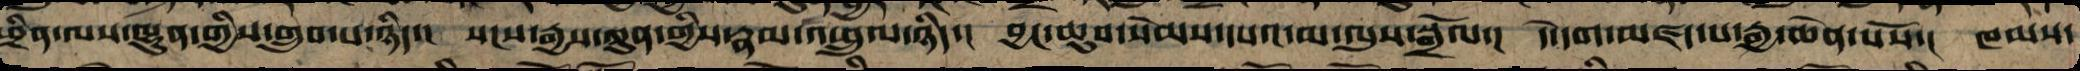ཕྲིན་ལས་ལྷུན་གྱིས་གྲུབ་པ་ཉིད་། སངས་རྒྱས་ཀུན་གྱི་རྣམ་འཕྲུལ་ཉིད་། བྱང་ཆུབ་སེམས་དཔའ་མ་ལུས་སྒྲོལ་། དེ་དག་མཛད་པ་རྒྱ་ཆེན་པོས་། ཁམས་
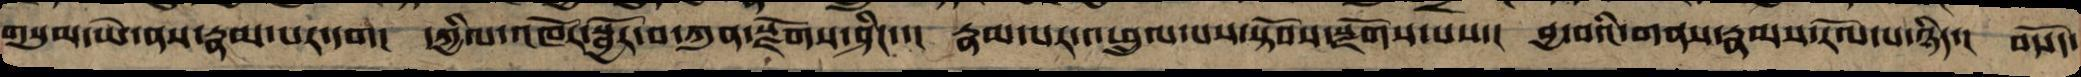གསུམ་ཡེ་ནས་རྣམ་པར་དག། དཀྱིལ་འཁོར་སྦྱོར་བ་ཀུན་སྫོགས་ཤིང་་། རྣམ་པར་འཕྲུལ་པས་སྟོབས་སྫོགས་པས་། བྱ་བའི་གནས་རྣམས་རོལ་པ་ཉིད་། བསོད་
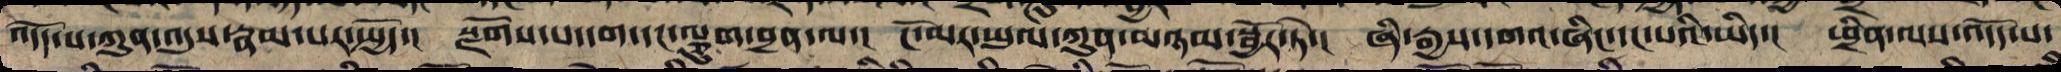འདོད་པ་ཀུན་འབྱུང་རྣམ་པར་སྤྱོད་། སྫོགས་་པ་དག་དང་ལྕུག་ཕྲན་ལ་། ངོ་མར་ཡུལ་ཀུན་མཉམ་སྦྱོར་ཏེ་། ཞི་རྒྱས་དགའ་ཞིང་དང་པའི་ཡིད་། ཕྲིན་ལས་འདོད་པ་
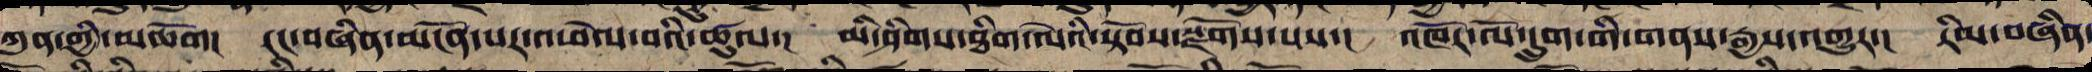ཀུན་གྱི་མཆོག། རང་བཞིན་མངོན་པར་འཕེལ་བའི་ཚུལ་། མི་ཤིགས་ཐིག་ལེའི་སྟོབས་སྫོགས་པས་། འཁོར་ལོ་དྲུག་གི་གནས་རྒྱས་འགྱུར་། རིམ་བཞིན་
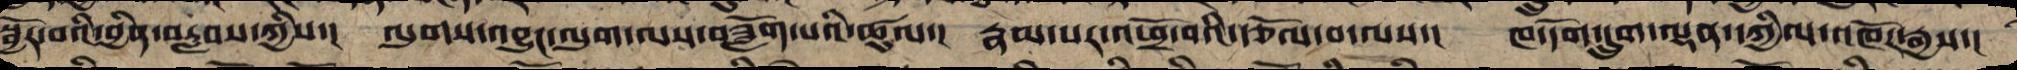སྦྱོར་བའི་བྱིན་བརླབས་ཀྱིས་། ལུགས་འབྱུང་ལུགས་ལས་ཟློག་པའི་ཚུལ་། རྣམ་པར་འཕྲོ་བའི་རྩོལ་བ་ལས་། ཁ་དོག་དྲུག་ལྡན་དཀྱིལ་འཁོར་རྒྱས་།
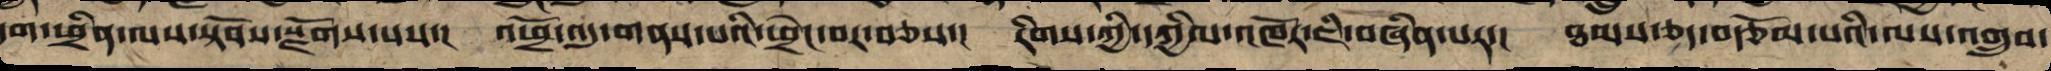དག་ཕྲིན་ལས་སྟོབས་སྫོགས་པས་། འཕྲོ་འདུ་གནས་པའི་ཕྲེང་བར་བཅས་། རིགས་ཀྱི་དཀྱིལ་འཁོར་ཇི་བཞིན་པར་། ཐམས་ཅད་བརྩོམ་པའི་ལས་འགྲུབ་
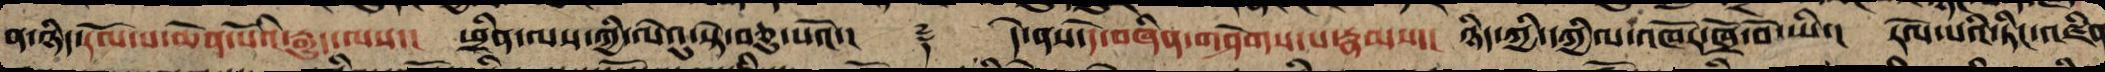ན་ཉིད་རོལ་པ་ཆེན་པོའི་རྒྱུད་ལས་། ཕྲིན་ལས་ཀྱི་ལེའུ་སྟེ་བཅུ་པའོ་།། ༈ དེ་ནས་དེ་བཞིན་གཤེགས་པ་རྣམས་། ཉིད་ཀྱི་དཀྱིལ་འཁོར་ཁྲོ་བོ་ཡི་། རོལ་པའི་ཏིང་འཛིན
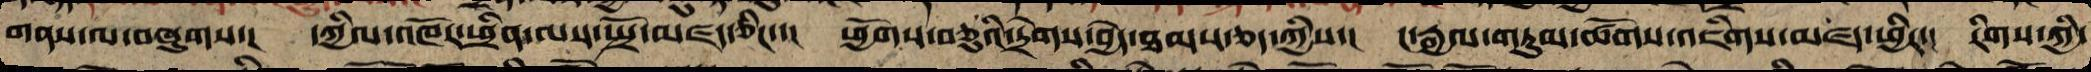གནས་ལ་བཞུགས་། དཀྱིལ་འཁོར་ཕྲིན་ལས་སྤྲོ་མཛད་ཅིང་་། ཕྱོགས་བཅུའི་དྲེགས་བྱེད་ཐམས་ཅད་ཀྱིས་། ང་རྒྱལ་གཏུམ་ཚོགས་འཇིགས་མཛད་ཕྱིར་། རིགས་ཀྱི་
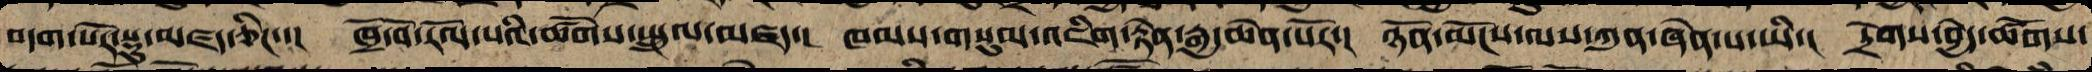བདག་པོར་སྡུ་མཛད་ཅིང་་། ཁྲོ་བོ་རོལ་པའི་ཚོགས་སྤྲུལ་མཛད་། ཁམས་གསུམ་འཇིག་རྟེན་རྒྱ་ཆེན་པོར་། ཉོན་མོངས་ལས་ཀུན་ཞེན་པ་ཡི་། དྲེགས་བྱེད་ཚོགས་
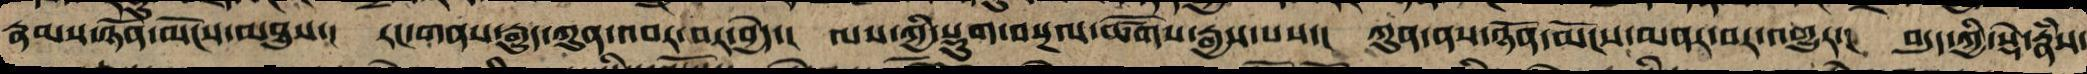རྣམས་ཉོན་མོངས་མཐུས་། རང་གནས་རྒྱུད་ཀུན་འབར་བར་བྱེད་། ལས་ཀྱི་སྡུག་བསྔལ་ཚོགས་རྒྱས་པས་། ཀུན་ནས་ཉོན་མོངས་མནར་བར་འགྱུར་། བདུད་ཀྱི་སྡེ་རྣཾས་
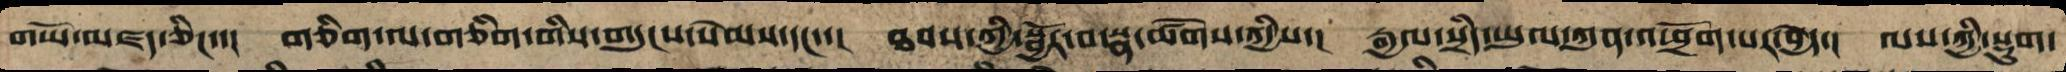གཡོ་མཛད་ཅིང་་། གཅིག་ལ་གཅིག་གིས་གདུང་སེམས་དང་་། ཐབས་ཀྱི་སྦྱོར་བ་སྣ་ཚོགས་ཀྱིས་། རྒྱལ་སྲིད་ཡུལ་ཀུན་འཕྲོག་པར་བྱེད་། ལས་ཀྱི་སྡུག་
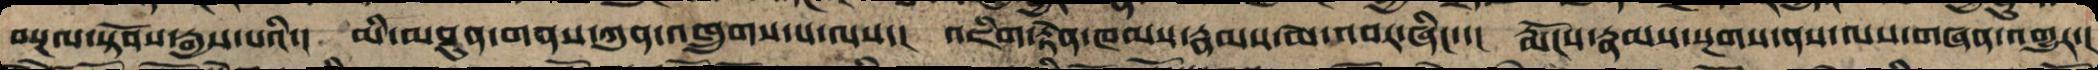བསྔལ་སྟོབས་རྒྱས་པའི་། མི་མཐུན་གནས་ཀུན་འཁྲུགས་པ་ལས་། འཇིག་རྟེན་ཁམས་རྣམས་མེ་འབར་ཞིང་་། རྨོངས་ཉམས་སྔགས་ནས་ལས་གཞན་འགྱུར་།
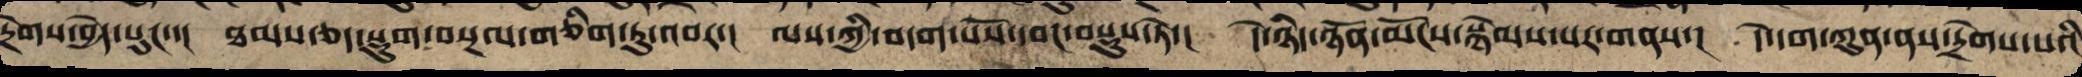དྲེགས་བྱེད་པུང་་། ཐམས་ཅད་སྡུག་བསྔལ་གཅིག་ཏུ་འབར་། ལས་ཀྱི་བདག་པོས་དབང་བསྡུས་ཏེ་། དེ་ཉིད་ཉོན་མོངས་སྙེམས་པར་གནས་། དེ་དག་ཀུན་ནས་དྲེགས་པའི
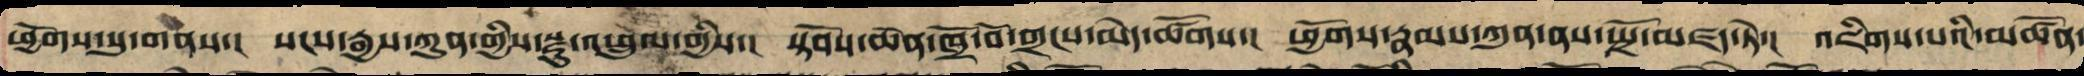ཕྱོགས་སུ་གནས་། སངས་རྒྱས་ཀུན་གྱི་སྫུ་འཕྲུལ་གྱིས་། སྟོབས་ཆེན་ཁྲོ་བོ་གྲངས་མེད་ཚོགས་། ཕྱོགས་རྣམས་ཀུན་ནས་སྤྲོ་མཛད་ཏེ་། འཇིགས་པའི་མཚོན་
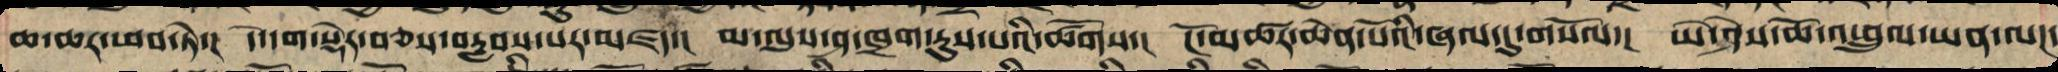ཆ་ཆར་ཕབ་ཏེ་། དེ་དག་སྡེར་བཅས་བརླགས་པར་མཛད་། མ་ལུས་ཤ་ཁྲག་རུས་པའི་ཚོགས་། ངོ་མཚར་ཆེན་པོའི་ཞལ་དུ་གསོལ་། ཡེ་ཤེས་ཆོ་འཕྲུལ་ཡན་ལཌ་
